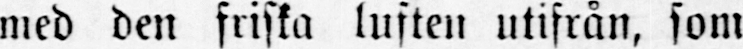med den friska luften utifrån, som
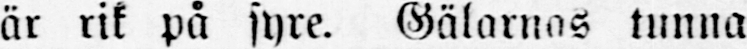är rik på syre. Gälarnas tunna
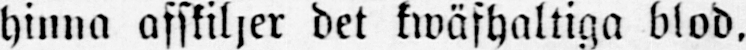hinna afskiljer det kwäfhaltiga blod,
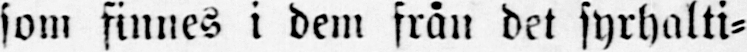som finnes i dem från det fyrhalti-
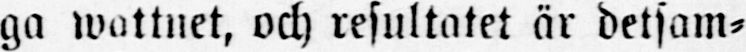ga wattnet, och resultatet är detsam-
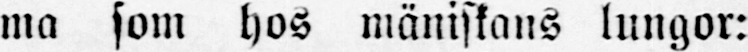ma som hos mäniskans lungor:
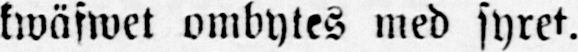kwäfwet ombytes med syret.
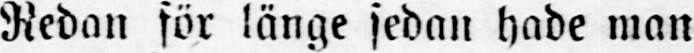Redan för länge sedan hade man
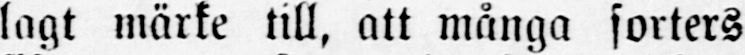lagt märke till, att många sorters
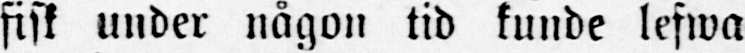fisk under någon tid kunde lefwa
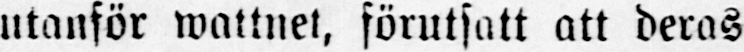utanför wattnet, förutsatt att deras
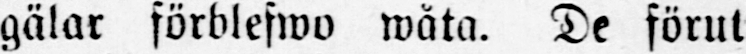gälar förblefwo wåta. De förut
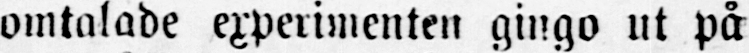omtalade experimenten gingo ut på
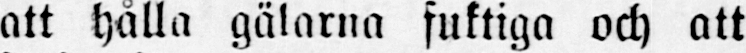att hålla gälarna fuktiga och att
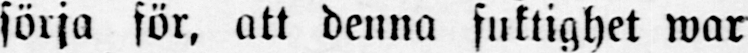sörja för, att denna fuktighet war
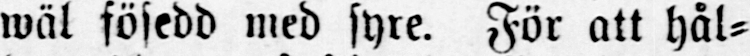wäl fösedd med syre. För att hål-
